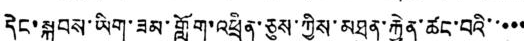དེང་སྐབས་ཡིག་ཟམ་གློག་འཕྲིན་ཅུས་ཀྱིས་མཁན་རྐྱེན་ཚང་བའི་་་་་
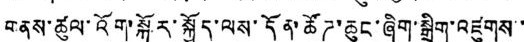གནས་ཚུལ་འོག་སྐོར་སྐྱོད་ལས་དོན་ཚོཊ་ཆུང་ཞིག་སྒྲིག་འཛུགས་་
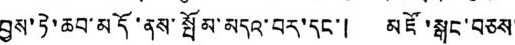བྱས་ཏེ་ཆབ་མདོ་ནས་སྤོམ་མདའ་བར་དང་། མཛོ་སྒང་བཅས་
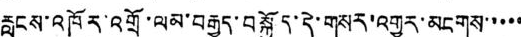རླངས་འཁོར་འགྲོ་ལམ་བརྒྱུད་བསྐྱོད་དེ་གསར་འགྱུར་མངགས་་་་་
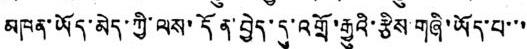མཁན་ཡོད་མེད་ཀྱི་ལས་དོན་བྱེད་དུ་འགྲོ་རྒྱུའི་རྩིས་གཞི་ཡོད་པ་་་
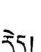རེད།
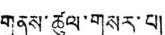གནས་ཚུལ་གསར་པ།
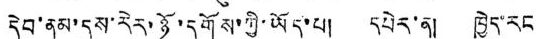དེབ་ནམ་དུས་རེར་ཉོ་དགོས་ཀྱི་ཡོད་པ། དཔེར་ན། ཁྱེད་རང
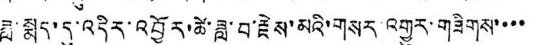ཟླ་སྨད་དུ་འདིར་འབྱོར་ཚེ་ཟླ་བ་རྗེས་མའི་གསར་འགྱུར་གཟིགས་་་་
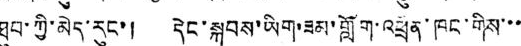ཐུབ་ཀྱི་མེད་རུང་། དེང་སྐབས་ཡིག་ཟམ་གློག་འཕྲིན་ཁང་གིས་་་
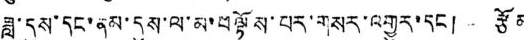ཟླ་དུས་དང་ནས་དུས་ལ་མ་བལྟོས་པར་གསར་འགྱུར་དང ། རྩོམ
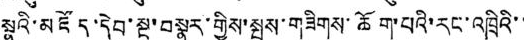སྣའི་མཛོད་དེབ་སྔ་བསྣུར་གྱིས་སྤུས་གཟིགས་ཆོག་པའི་རང་འཁྲིའི་་
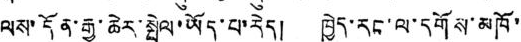ལས་དོན་རྒྱ་ཆེར་སྤེལ་ཡོད་པ་རེད། ཁྱེད་རང་ལ་དགོས་མཁོ་་
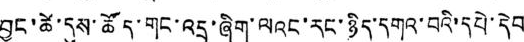བྱུང་ཚེ་དུས་ཚོད་གང་འདྲ་ཞིག་ལའང་རང་ཉིད་དགའ་བའི་དཔེ་དེབ
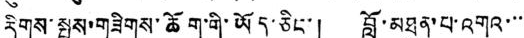རིགས་སྤུས་གཟིགས་ཆོག་གི་ཡོད་ཅིང་། བློ་མཐུན་པ་འགའ་་་་
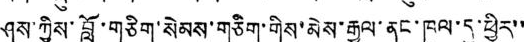ཤས་ཀྱིས་བློ་གཅིག་སེམས་གཅིག་གིས་མེས་རྒྱལ་ནང་ཁུལ་དུ་ཕྱིར་་
